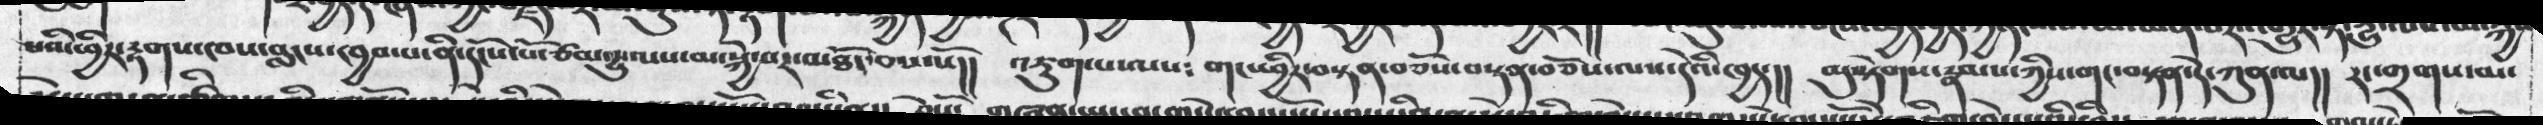པའི་ཕྱིར་རྟགས་ཁས་བླངས་ཁྱབ་ནི་དངོས་པོ་ཙམ་དྱུ་ལས་མ་སྐྱེ་པར་མཐོང་བས་སོ།།  འཇུག་པ་ལས༴    གང་ཕྱིར་བསྟན་བཅོས་ལས་དེའི་ཁྱད་།།  མུ་སྟེགས་རྣམས་ཀྱིས་གང་བསྟན་དེ་ཀུན་ལ།།   རང་གྲགས་མ་
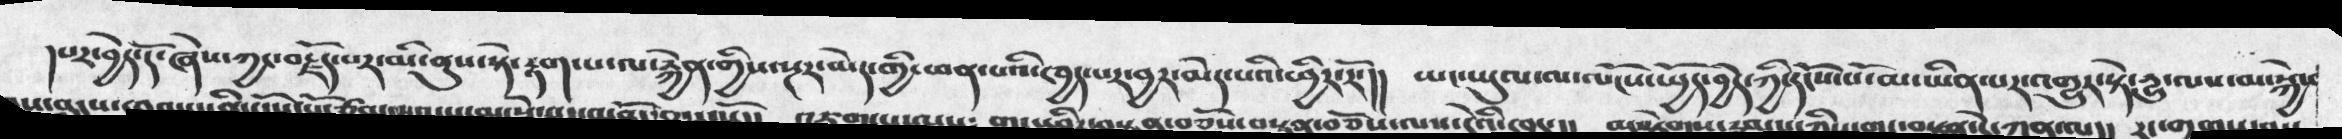།པར་བྱེད་དོ་ཞེས་ཀྱང་བརྗོད་པར་མི་ནུས་སྟེ་རྟག་པ་ལ་རྐྱེན་གྱིས་སྔར་མེད་གྱི་ཕན་པའི་ཁྱད་པར་བྱར་མེད་པའི་ཕྱིར་།།  ཡང་ཡུལ་ལ་ལོངས་སྤྱོད་བྱེད་ཀྱི་དངོས་པོ་མ་ཡིན་པར་འགྱུར་སྟེ་དྱུ་ལས་མ་སྐྱེ་
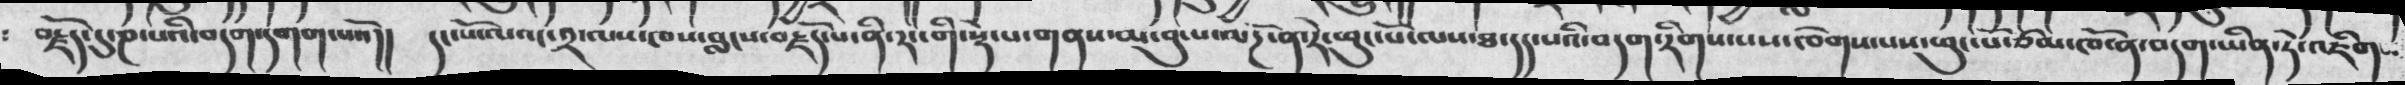བརྗོད་དུ་ཎ་པའི་བདག་དགག་པའོ།།   དང་པོ་ལའང་༢་ལས་ཁས་བླངས་བརྗོད་པ་ནི་རང་གི་སྡེ་པ་གནས་མ་བུ་པ་ལོཌ་ན་རེ་ཕུང་པོ་ལས་ཐ་དད་པའི་བདག་རིགས་པས་ཁེགས་པས་ཕུང་པོ་ཙམ་ཁོ་ན་བདག་ཡིན་ཏེ་འཇིག
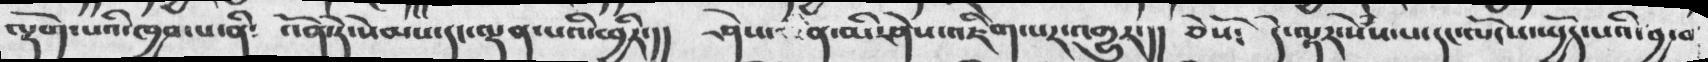ལྡོག་པའི་ཁྱབ་པ་ནི༴   འོན་ཏེ་སེམས་དང་ལྡན་པའི་ཕྱིར་།།   ཤེས་ན་མི་ཤེས་འཇིག་པར་འགྱུར་།།  ཅེསོ༴   དེ་ལྟར་སེཾས་པ་དང་ལོངས་སྤྱོད་པའི་བྱ་བ
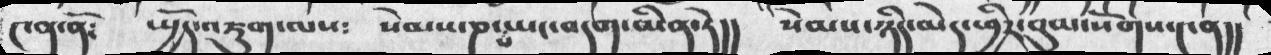༤ན་ནོ༴   སྤྱོད་འཇུག་ལས༴     སེམས་ཎ་པ་ཡང་བདག་ཡིན་ཏེ།།  སེམས་ཉིད་མེད་ཕྱིར་བུམ་སོགས་༤ན།།
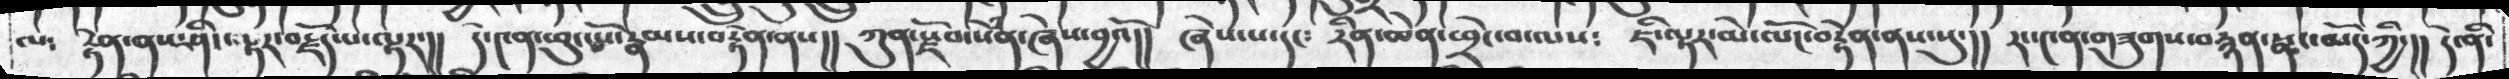ལ༴  རྟེན་ནས་ཤིང་ལྟར་བརྗོད་པ་ལྟར་།།  དེ་༤ན་ཕུང་པ་རྣམས་བརྟེན་ནས།།   ཀུན་རྗོབ་སེཾན་ཞེས་བྱའོ།།  ཞེས་པ་དང༴   རིན་ཆེན་ཕྲེང་བ་ལས༴  ཇི་ལྟར་མེ་ལོང་བརྟེན་ནས་སུ་།།  རང་༤ན་གཟུགས་བརྙན་སྣང་མོད་ཀྱི་།།  དེ་ནི་
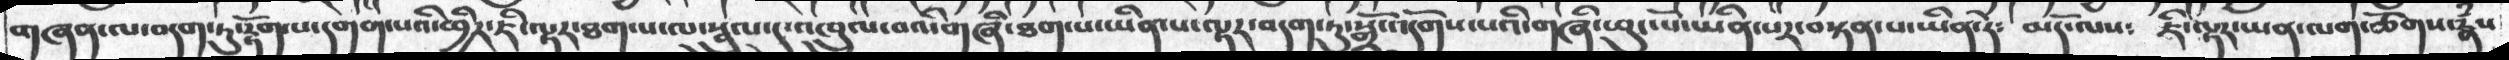གཞན་ལ་བདག་ཏུ་རྟོགས་པ་དགག་པའི་ཕྱིར་ཇི་ལྟར་ཐག་པ་ལ་སྦྲུལ་དུ་འཁྲུལ་བའི་གཞི་ཐག་པ་ཡིན་ལྟར་བདག་ཏུ་སྒྲོ་འདོགས་པའི་གཞི་ཕུང་པོ་ཡིན་པར་བསྟན་པ་ཡིན་ཏེ༴   མདོ་ལས༴   ཇི་ལྟར་ཡན་ལག་ཚོགས་རྣཾས
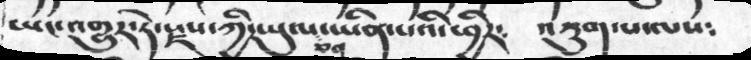ཡང་འགྱུར་ཏེ་རྗས་ཀྱི་ཡུལ་ཅན་ཡིན་ཕྱིར༴  འཇུག་པ་ལས༴
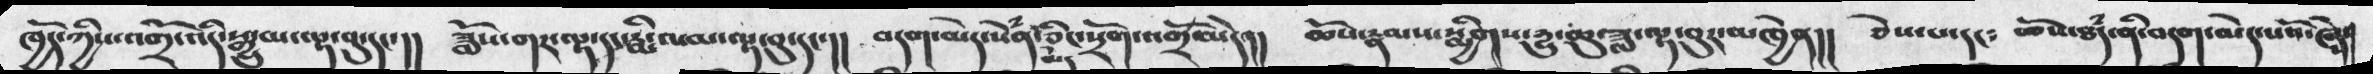ཁྱོད་ཀྱིས་འགྲོ་འདི་སྒྱུ་མ་ལྟ་བུ་དང་།།   ཟློས་གར་ལྟ་དང་རྨི་ལམ་ལྟ་བུ་དང་།།  བདག་མེད་སེཾན་མེད་ཅིང་སྲོག་འགྲོ་མེད།།  ཆོས་རྣམས་སྨྱིགས་དྱུ་ཆུ་ཟླ་ལྟ་བུར་མཁྱེན།།  ཅེས་པ་དང༴  ཆོས་ཐཾད་ནི་བདག་མེད་པའོ་ཞེས་
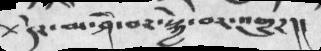+དེར་མ་ཤི་བར་སྐྱེ་བར་འགྱུར།།
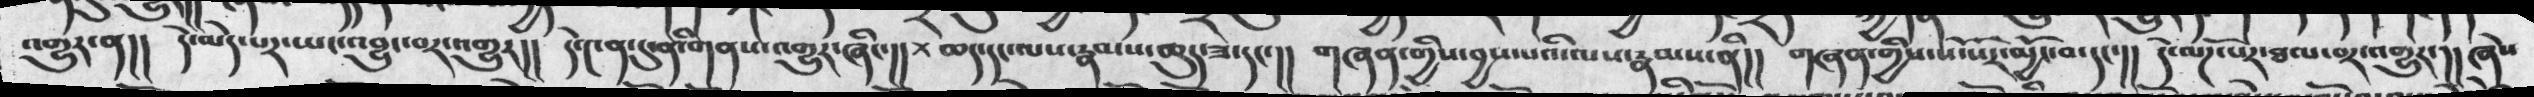འགྱུར་ན།།  དེ་མེད་པར་ཡང་འབྱུང་བར་འགྱུར།།  དེ་༤ན་དུ་ནི་གནས་འགྱུར་ཞིང་།།+ ཆད་དང་ལས་རྣམས་ཆུད་ཟ་དང་།།  གཞན་གྱིས་བྱས་པའི་ལས་རྣམས་ནི།།  གཞན་གྱིས་སོ་སོར་མྱོང་བ་དང་།།  དེ་ལོཌ་པར་ཐལ་་བར་འགྱུར་།། ཞེས
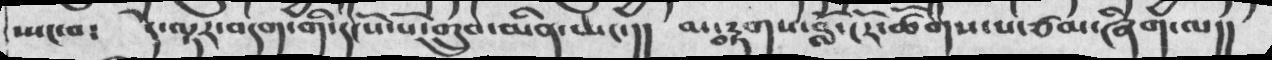སྤང་བ༴  དེ་ལྟར་བདག་གི་དངོས་པོ་གྲུབ་མིན་ཡང་་།།  མ་བརྟགས་བློ་ངོར་ཚོགས་པ་ཙམ་ཞིག་ལ།།
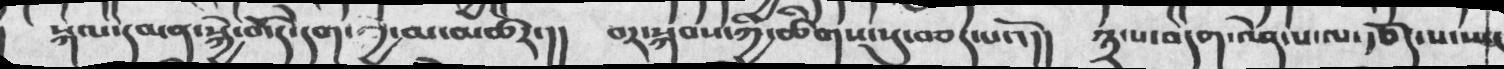སྐལ་དམན་སྐྱེ་བོ་དེ་དག་ཀྱེ་མ་མཚར་།།   བར་སྐབས་ཀྱི་ཚིགས་སུ་བཅད་པའོ།།  ༣་པ་བདག་ལེན་པ་ལ་རྩོད་པ་སྤང
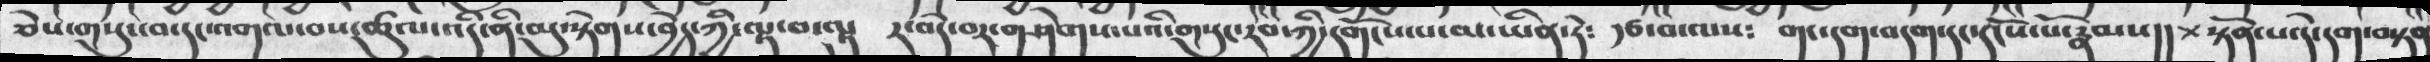ཅེས་གསུང་བ་དང་འགལ་བས་ཚུལ་འདི་ནི་མུ་སྟེགས་བྱེད་ཀྱི་ལྟ་བ་ལྟུར་བདེ་བར་གཤེགས་པའི་གསུང་རབ་ཀྱི་དགོངས་པ་མ་ཡིན་ཏེ༴   རྩ་བ་ལས༴  གང་དག་བདག་དང་དངོས་པོ་རྣམས།། +སྟོན་པ་དེ་དག་བསྟན
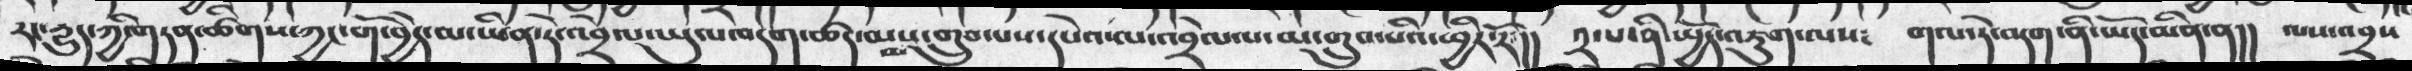རང་དྱུད་ཀྱི་གཏན་ཚིགས་ཀྱང་གོ་བྱེད་མ་ཡིན་ཏེ་འབྲེལ་ཡུལ་བདག་ཚད་མས་མ་གྲུབ་པས་དཔེའ་ལ་འབྲེལ་པ་མ་གྲུབ་པའི་ཕྱིར་རོ་།།   ༢་པ་ནི་སྤྱོད་འཇུག་ལས༴  གལ་ཏེ་བདག་ནི་ཡོད་མིན་ན།།  ལས་འབྲས
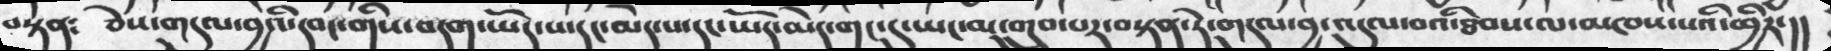བསྟན༴  ཅེས་གདུལ་བྱའི་དབང་གིས་བདག་ཡོད་པ་དང་མེད་པ་དང་ཡོད་མེད་གང་དུ་ཡང་མ་གྲུབ་པར་བསྟན་ཏེ་གདུལ་བྱ་འདུལ་བའི་ཐབས་ལ་མཁས་པའི་ཕྱིར་།།
